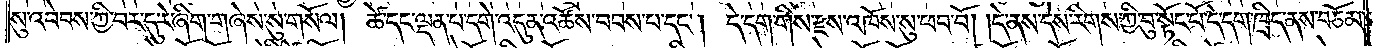སུ་འབེབས་ཀྱི་བར་དུ་རེ་ཞིག་གཞེས་སུ་གསོལ། ཚེ་དང་ལྡན་པ་དགེ་འདུན་འཚོས་བབས་པ་དང༌། དེ་དག་གིས་རྫས་འཁོས་སུ་ཕབ་བོ། །དེ་ནས་དེས་རིགས་ཀྱི་བུ་སྟོང་པོ་དེ་དག་ཁྲིད་ནས་བཅོམ་
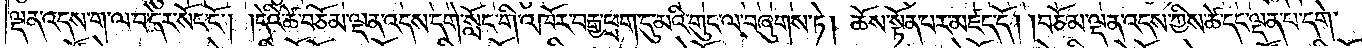ལྡན་འདས་ག་ལ་བ་དེར་སོང་ངོ༌། །དེའི་ཚེ་བཅོམ་ལྡན་འདས་དགེ་སློང་གི་འཁོར་བརྒྱ་ཕྲག་དུ་མའི་གུང་ལ་བཞུགས་ཏེ། ཆོས་སྟོན་པར་མཛད་དོ། །བཅོམ་ལྡན་འདས་ཀྱིས་ཚེ་དང་ལྡན་པ་དགེ་
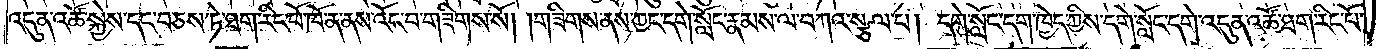འདུན་འཚོ་སྐྱེས་དང་བཅས་ཏེ་ཐག་རིང་པོ་ཁོ་ན་ནས་འོང་བ་གཟིགས་སོ། །གཟིགས་ནས་ཀྱང་དགེ་སློང་རྣམས་ལ་བཀའ་སྩལ་པ། དགེ་སློང་དག་ཁྱེད་ཀྱིས་དགེ་སློང་དགེ་འདུན་འཚོ་ཐག་རིང་པོ་
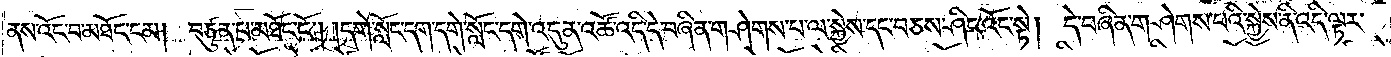ནས་འོང་བ་མཐོང་ངམ། བཙུན་པ་མཐོང་ངོ༌། །དགེ་སློང་དག་དགེ་སློང་དགེ་འདུན་འཚོ་འདི་དེ་བཞིན་གཤེགས་པ་ལ་སྐྱེས་དང་བཅས་ཤིང་འོང་སྟེ། དེ་བཞིན་གཤེགས་པའི་སྐྱེས་ནི་འདི་ལྟར་
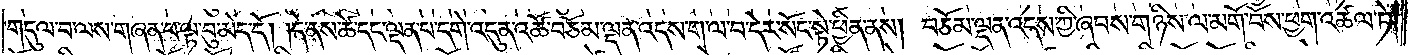གདུལ་བ་ལས་གཞན་པ་ལྟ་བུ་མེད་དོ། །དེ་ནས་ཚེ་དང་ལྡན་པ་དགེ་འདུན་འཚོ་བཅོམ་ལྡན་འདས་ག་ལ་བ་དེར་སོང་སྟེ་ཕྱིན་ནས། བཅོམ་ལྡན་འདས་ཀྱི་ཞབས་གཉིས་ལ་མགོ་བོས་ཕྱག་འཚལ་ཏེ།
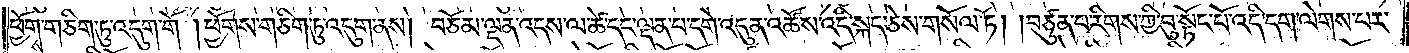ཕྱོགས་གཅིག་ཏུ་འདུག་གོ །ཕྱོགས་གཅིག་ཏུ་འདུག་ནས། བཅོམ་ལྡན་འདས་ལ་ཚེ་དང་ལྡན་པ་དགེ་འདུན་འཚོས་འདི་སྐད་ཅེས་གསོལ་ཏོ། །བཙུན་པ་རིགས་ཀྱི་བུ་སྟོང་པོ་འདི་དག་ལེགས་པར་
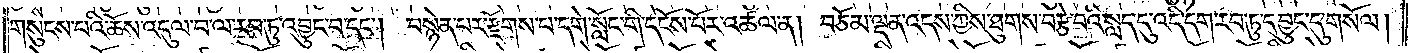གསུངས་པའི་ཆོས་འདུལ་བ་ལ་རབ་ཏུ་འབྱུང་བ་དང༌། བསྙེན་པར་རྫོགས་པ་དགེ་སློང་གི་དངོས་པོར་འཚལ་ན། བཅོམ་ལྡན་འདས་ཀྱིས་ཐུགས་བརྩེ་བའི་སླད་དུ་འདི་དག་རབ་ཏུ་འབྱུང་དུ་གསོལ།
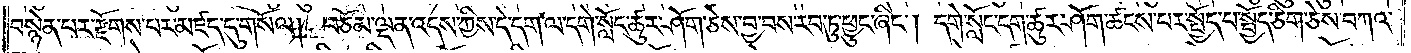བསྙེན་པར་རྫོགས་པར་མཛད་དུ་གསོལ། བཅོམ་ལྡན་འདས་ཀྱིས་དེ་དག་ལ་དགེ་སློང་ཚུར་ཤོག་ཅེས་བྱ་བས་རབ་ཏུ་ཕྱུང་ཞིང༌། དགེ་སློང་དག་ཚུར་ཤོག་ཚངས་པར་སྤྱོད་པ་སྤྱོད་ཅིག་ཅེས་བཀའ་
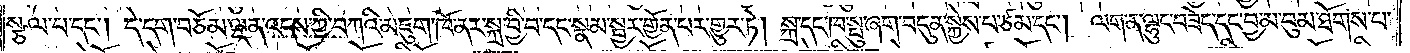སྩལ་པ་དང༌། དེ་དག་བཅོམ་ལྡན་འདས་ཀྱི་བཀའི་མཇུག་ཁོ་ནར་སྐྲ་བྱི་པ་དང་སྣམ་སྦྱར་གྱོན་པར་གྱུར་ཏེ། སྐྲ་དང་ཁ་སྤུ་ཞག་བདུན་སྐྱེས་པ་ཙམ་དང༌། ལག་ན་ལྷུང་བཟེད་དང་བྱ་མ་བུམ་ཐོགས་པ་
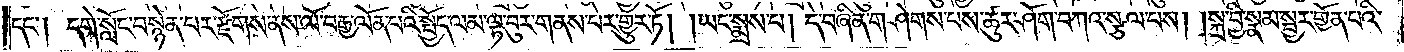དང༌། དགེ་སློང་བསྙེན་པར་རྫོགས་ནས་ལོ་བརྒྱ་ལོན་པའི་སྤྱོད་ལམ་ལྟ་བུར་གནས་པར་གྱུར་ཏོ། །ཡང་སྨྲས་པ། དེ་བཞིན་གཤེགས་པས་ཚུར་ཤོག་བཀའ་སྩལ་པས། །སྐྲ་བྱི་སྣམ་སྦྱར་གྱོན་པའི་
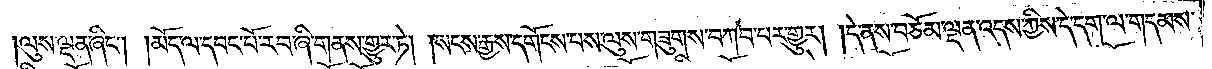ལུས་ལྡན་ཞིང༌། །མོད་ལ་དབང་པོ་རབ་ཞི་གནས་གྱུར་ཏེ། །སངས་རྒྱས་དགོངས་པས་ལུས་གཟུགས་བཀབ་པར་གྱུར། །དེ་ནས་བཅོམ་ལྡན་འདས་ཀྱིས་དེ་དག་ལ་གདམས་
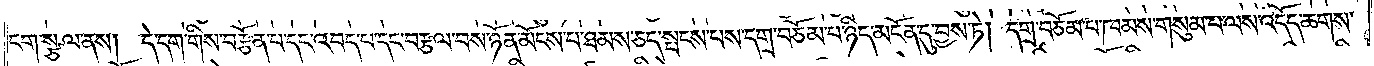ངག་སྩལ་ནས། དེ་དག་གིས་བརྩོན་པ་དང་འབད་པ་དང་བརྩལ་བས་ཉོན་མོངས་པ་ཐམས་ཅད་སྤངས་པས་དགྲ་བཅོམ་པ་ཉིད་མངོན་དུ་བྱས་ཏེ། དགྲ་བཅོམ་པ་ཁམས་གསུམ་པ་ལས་འདོད་ཆགས་
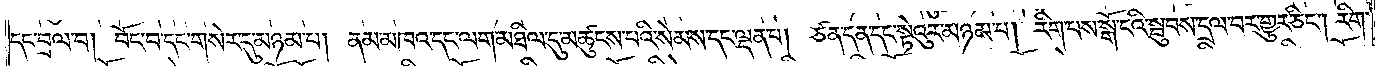དང་བྲལ་བ། བོང་བ་དང་གསེར་དུ་མཉམ་པ། ནམ་མཁའ་དང་ལག་མཐིལ་དུ་མཚུངས་པའི་སེམས་དང་ལྡན་པ། ཙན་དན་དང་སྟེའུར་མཉམ་པ། རིག་པས་སྒོ་ངའི་སྦུབས་དྲལ་བར་གྱུར་ཅིང༌། རིག་
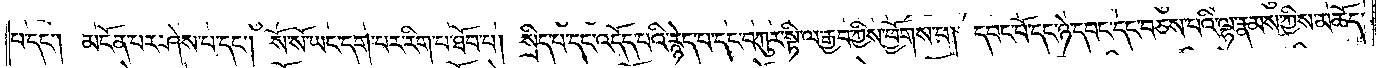པ་དང༌། མངོན་པར་ཤེས་པ་དང༌། སོ་སོ་ཡང་དག་པར་རིག་པ་ཐོབ་པ། སྲིད་པ་དང་འདོད་པའི་རྙེད་པ་དང་བཀུར་སྟི་ལ་རྒྱབ་ཀྱིས་ཕྱོགས་པ། དབང་པོ་དང་ཉེ་དབང་དང་བཅས་པའི་ལྷ་རྣམས་ཀྱིས་མཆོད་
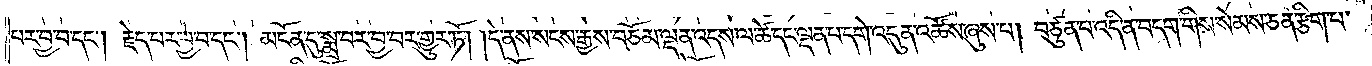པར་བྱ་བ་དང༌། རྗེད་པར་བྱ་བ་དང༌། མངོན་དུ་སྨྲ་བར་བྱ་བར་གྱུར་ཏོ། །དེ་ནས་སངས་རྒྱས་བཅོམ་ལྡན་འདས་ལ་ཚེ་དང་ལྡན་པ་དགེ་འདུན་འཚོས་ཞུས་པ། བཙུན་པ་འདི་ན་བདག་གིས་སེམས་ཅན་རྩིག་པ་
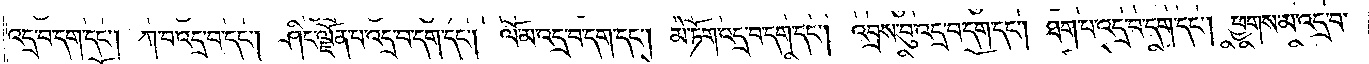འདྲ་བ་དག་དང༌། ཀ་བ་འདྲ་བ་དང༌། ཤིང་ལྗོན་པ་འདྲ་བ་དག་དང༌། ལོ་མ་འདྲ་བ་དག་དང༌། མེ་ཏོག་འདྲ་བ་དག་དང༌། འབྲས་བུ་འདྲ་བ་དག་དང༌། ཐག་པ་འདྲ་བ་དག་དང༌། ཕྱགས་མ་འདྲ་བ་
